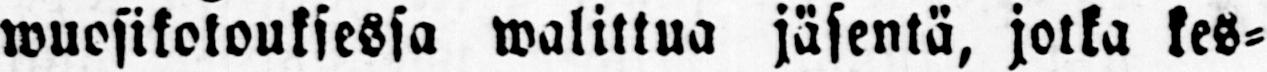wuosikokouksessa walittua jäsentä, jotka kes-
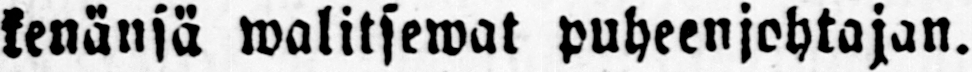kenänsä walitsewat puheenjohtajan.
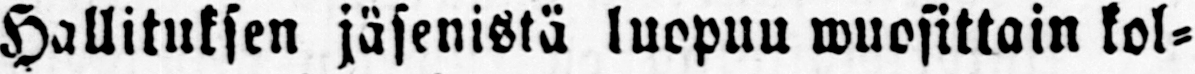Hallituksen jäsenistä luopuu wuosittain kol-
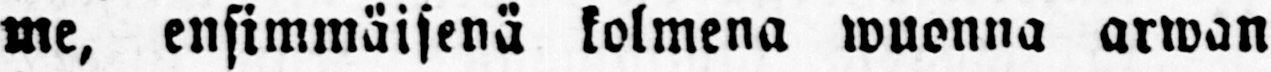me, ensimmäisinä kolmena wuonna arwan
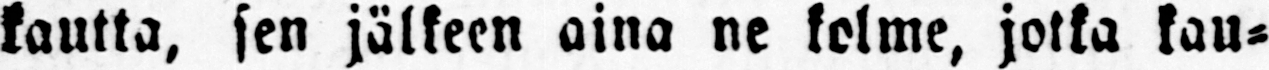kautta, sen jälkeen aina ne kolme, jotka kau-
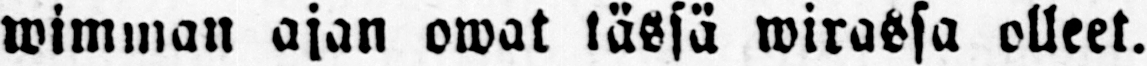wimman ajan owat tässä wirassa olleet.
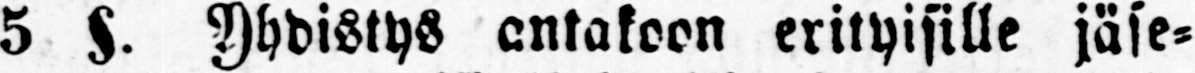5 §. Yhdistys antakoon erityisille jäse-
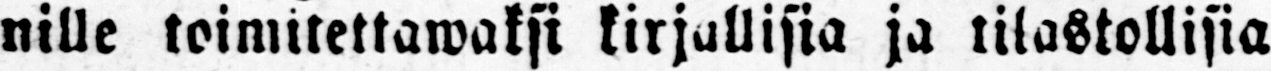nille toimitettawaksi kirjallisia ja tilastollisia
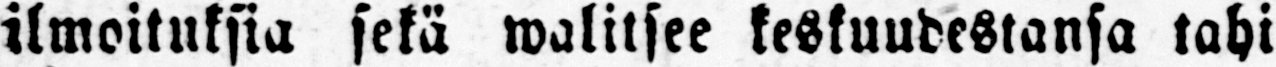ilmoituksia sekä walitsee keskuudestansa tahi
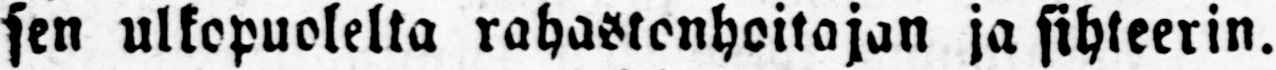sen ulkopuolelta rahastonhoitajan ja sihteerin.
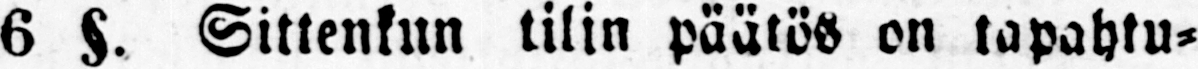6 §. Sittenkun tilin päätös on tapahtu-
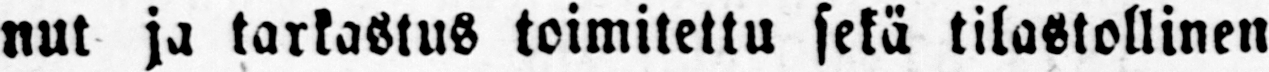nut ja tarkastus toimitettu sekä tilastollinen
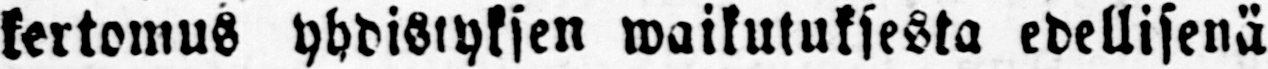kertomus yhdistyksen waikutuksesta edellisenä
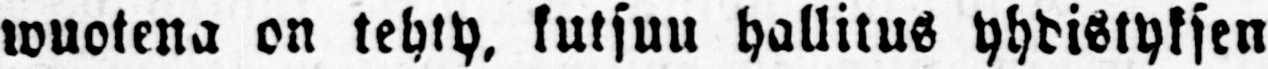wuotena on tehty, kutsuu hallitus yhdistyksen
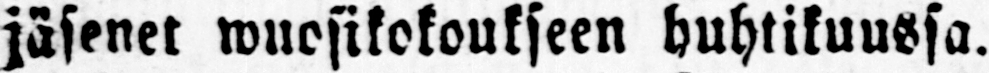jäsenet wuosikokoukseen huhtikuussa.
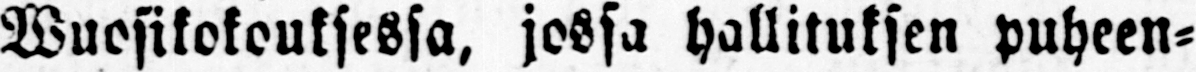Wuosikokouksessa, jossa hallituksen puheen-
